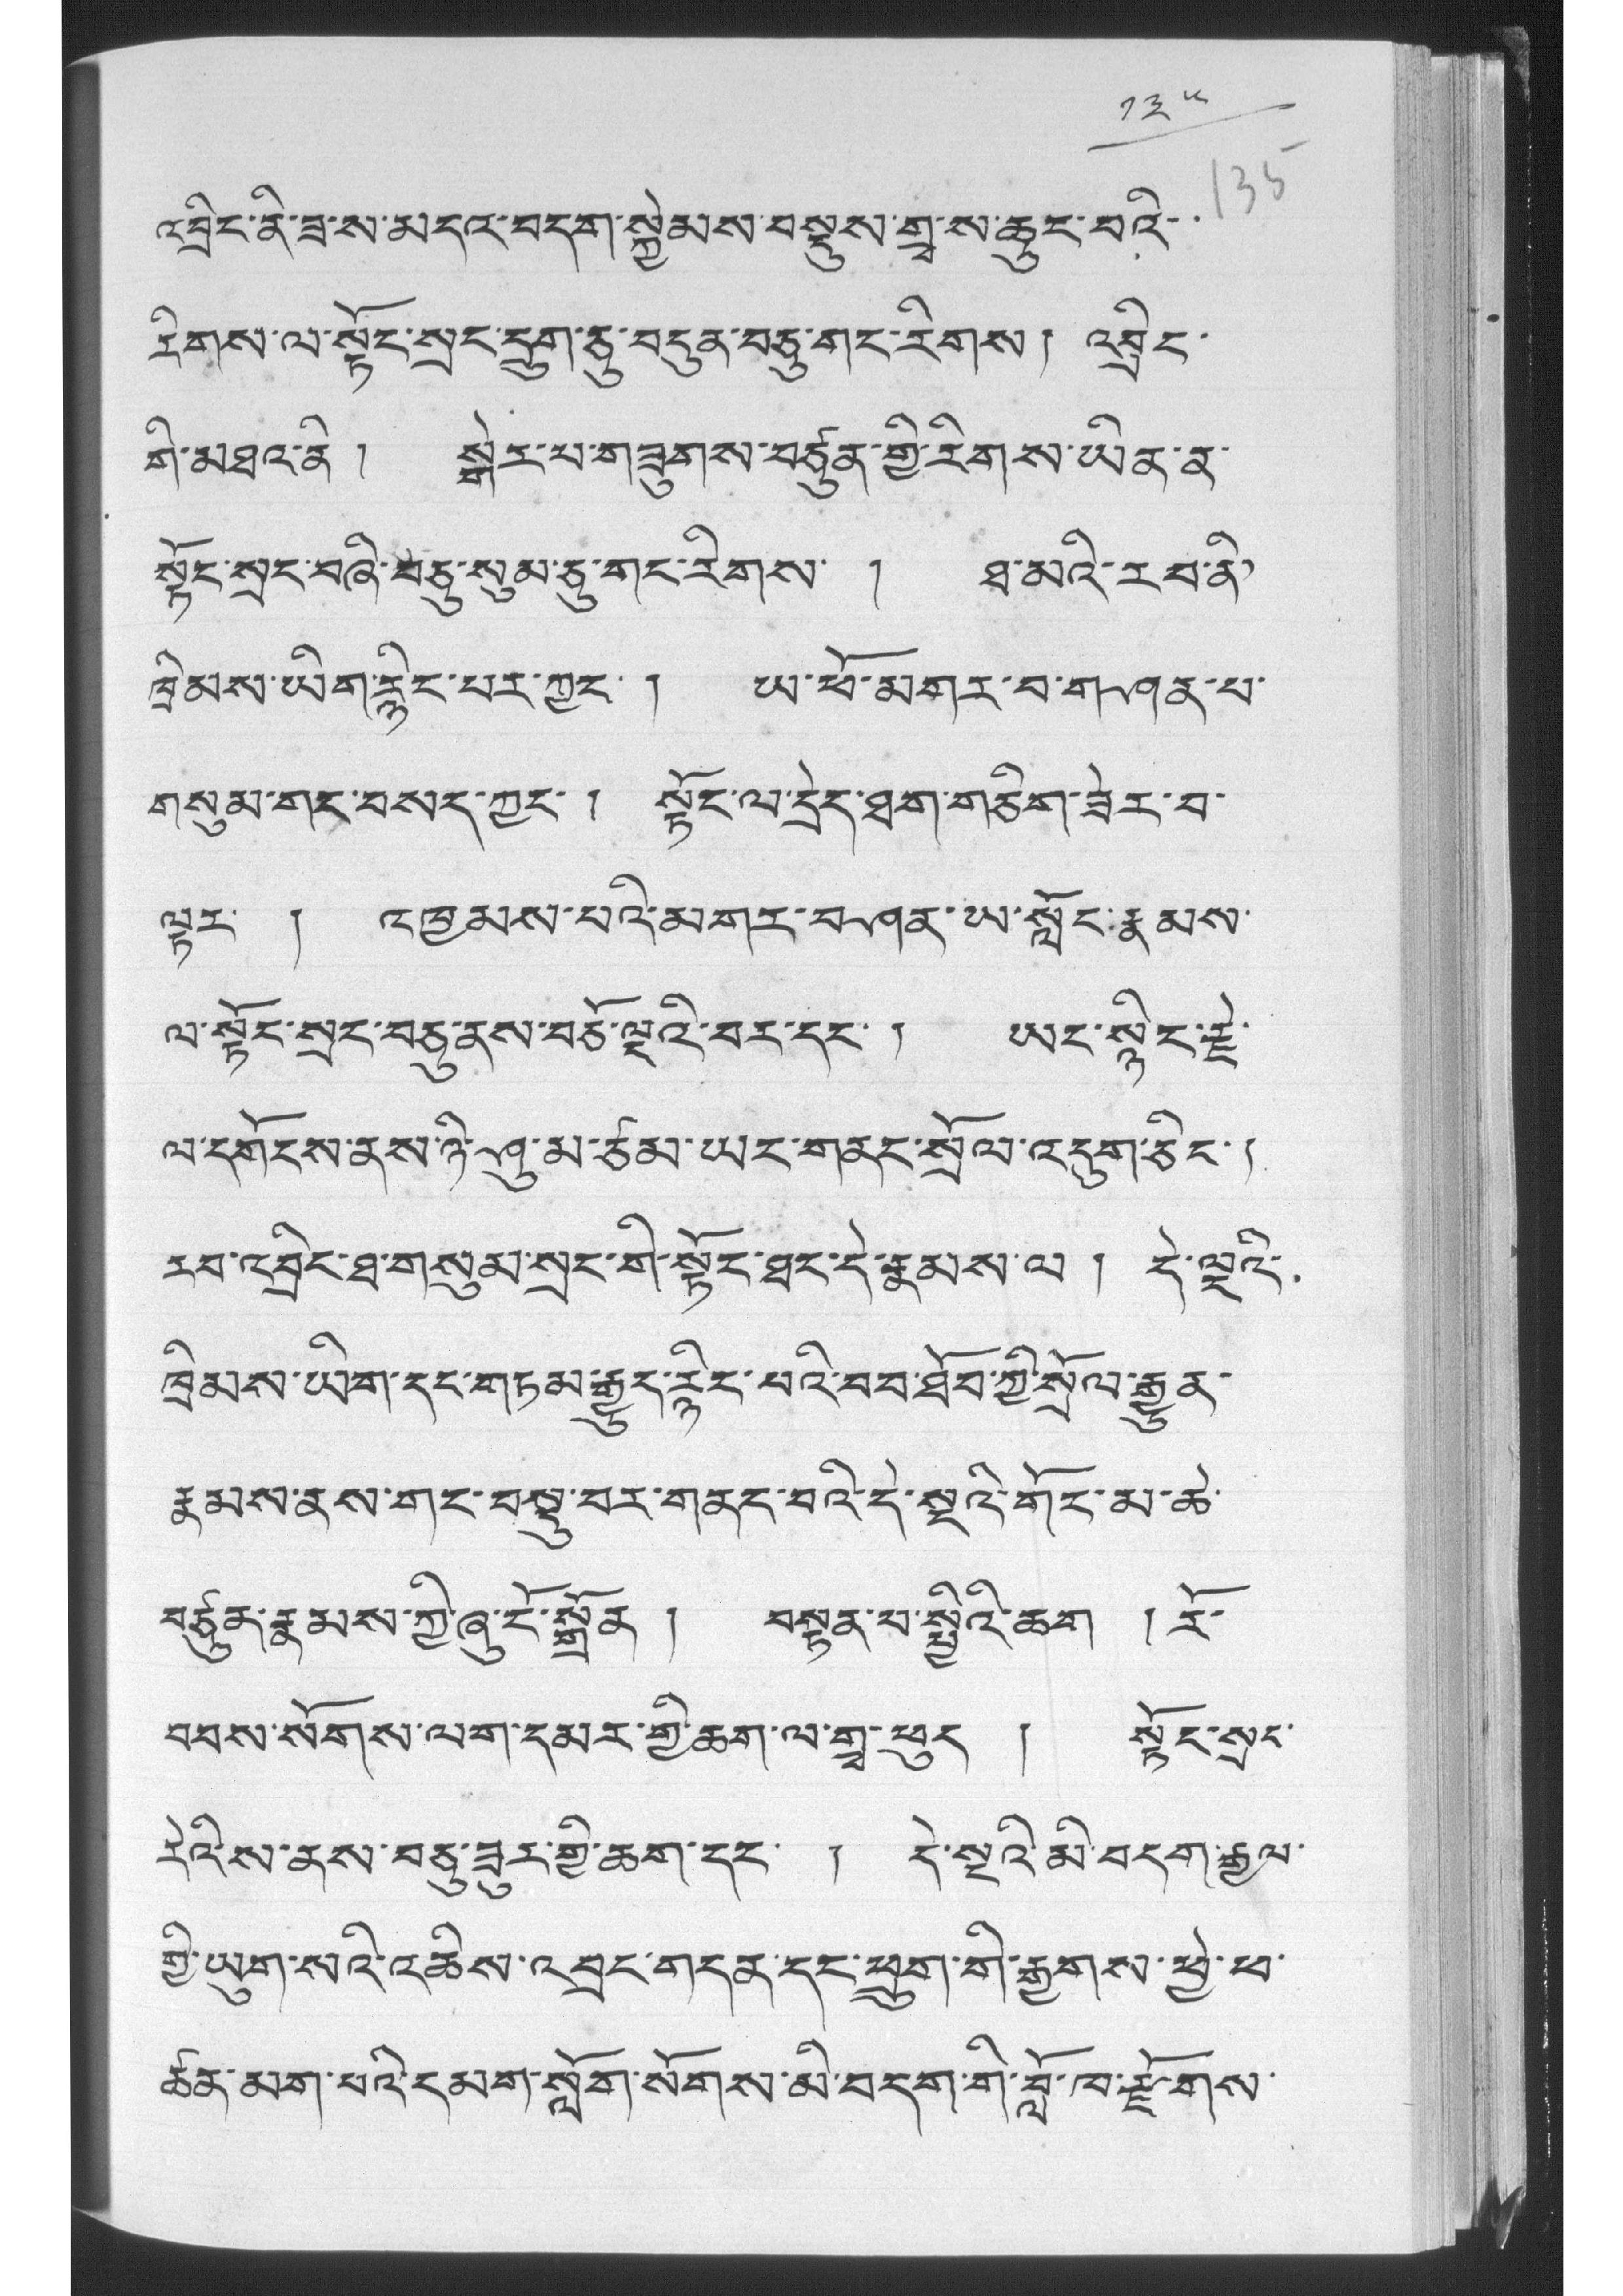༡༣༥
འབྲིང་ནི་ཟ་ས་མདའ་བདག་སྐྱེམས་བསྡུས་གྲྭ་ས་ཆུང་བའི་
རིགས་ལ་སྟོང་སྲང་དྲུག་ཅུ་བདུན་བཅུ་གང་རིགས། འབྲིང་
གི་མཐའ་ནི ། སྒེར་པ་གཟུགས་བཙུན་གྱི་རིགས་ཡིན་ན་
སྟོང་སྲང་བཞི་བཅུ་སུམ་ཅུ་གང་རིགས་ ། ཐ་མའི་རབ་ནི་
ཁྲིམས་ཡིག་རྙིང་པར་ཀྱང་ ། ཡ་ཕོ་མགར་བ་གཤན་པ་
གསུམ་གང་བསད་ཀྱང་ ། སྟོང་ལ་དྲེད་ཐག་གཅིག་ཟེར་བ་
ལྟར་ ། འཁྱམས་པའི་མགར་བཤན་ཡ་སློང་རྣམས་
ལ་སྟོང་སྲང་བཅུ་ནས་བཅོ་ལྔའི་བར་དང་། ཡང་སྙིང་རྗེ་
ལ་དགོངས་ནས་ཉི་ཤུ་མ་ཙམ་ཡང་གནང་སྲོལ་འདུག་ཅིང་།
རབ་འབྲིང་ཐ་གསུམ་སྲང་གི་སྟོང་ཐང་དེ་རྣམས་ལ ། དེ་ལྔའི་
ཁྲིམས་ཡིག་དང་གཏམ་རྒྱུད་རྙིང་པའི་བབ་ཐོབ་ཀྱི་སྲོལ་རྒྱུན་
རྣམས་ནས་གང་བསྡུ་བར་གནང་བའི་དེ་སྔའི་གོང་མ་ཆེ་
བཙུན་རྣམས་ཀྱི་ཞུ་ངོ་སྒྲོན ། བསྟན་པ་སྤྱིའི་ཆག ། རོ་
བབས་སོགས་ལག་དམར་གྱི་ཆག་ལ་གྲྭ་ཕུད ། སྟོང་སྲང་
རེའི་ས་ནས་བཅུ་ཟུར་གྱི་ཆག་དང་ ། དེ་སྔའི་མི་བདག་རྒྱལ་
གྱི་ཡུག་སའི་འཆིས་འབྲང་གདན་དང་ཕྲུག་གི་རྒྱགས་ཕྱེ་ཕ་
ཚན་མག་པའི་དམག་སློག་སོགས་མི་བདག་གི་བློ་ཁ་རྫོགས་
